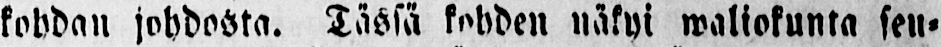kohdan johdosta. Tässä kohden näkyi waliokunta seu-
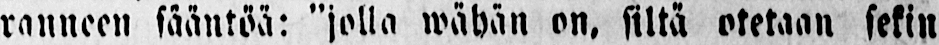ranneen sääntöä: ”jolla wähän on, siltä otetaan sekin
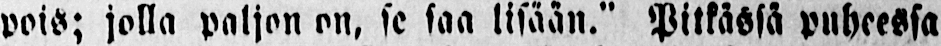pois; jolla paljon on, se saa lisään.” Pitkässä puheessa
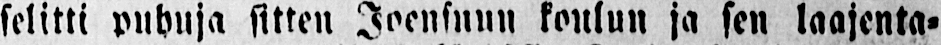selitti puhuja sitten Joensuun koulun ja sen laajenta-
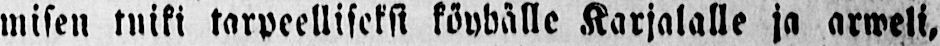misen tuiki tarpeelliseksi köyhälle Karjalalle ja arweli,
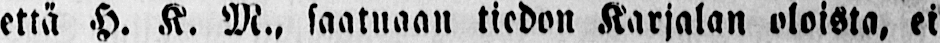että H. K. M., saatuaan tiedon Karjalan oloista, ei
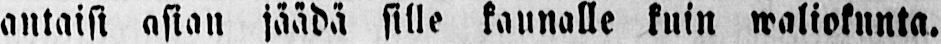antaisi asian jäädä sille kaunalle kuin waliokunta.
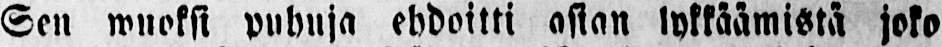Sen wuoksi puhuja ehdoitti asian lykkäämistä joko
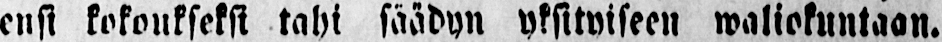ensi kokoukseksi tahi säädyn yksityiseen waliokuntaan.
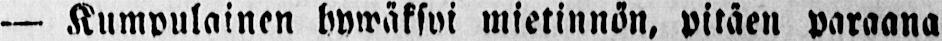— Kumpulainen hywäksyi mietinnön, pitäen parsana
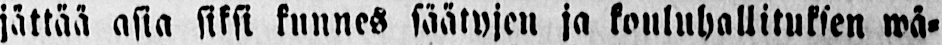jättää asia siksi kunnes säätyjen ja kouluhallituksen wä-
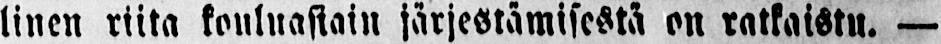linen riita kouluasiain järjestämisestä on ratkaistu. —
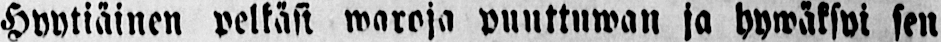Hyytiäinen pelkäsi waroja puuttuwan ja hywäksyi sen
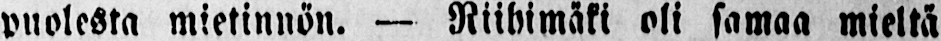puolesta mietinnön. — Riihimäki oli samaa mieltä
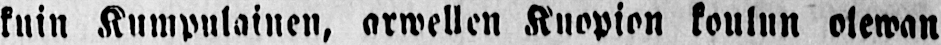kuin Kumpulainen, arwellen Kuopion koulun olewan
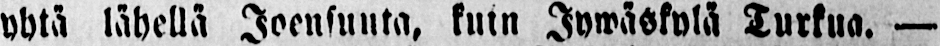yhtä lähellä Joensuuta, kuin Jywäskylä Turkua. —
